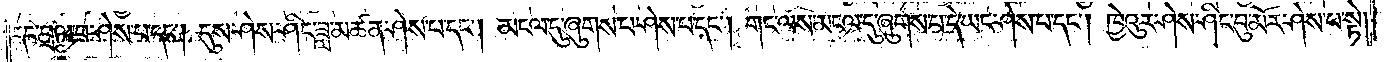དང་བྲལ་བ་ཤེས་པ་དང༌། དུས་ཤེས་ཤིང་ཟླ་མཚན་ཤེས་པ་དང༌། མངལ་དུ་ཞུགས་པ་ཤེས་པ་དང༌། གང་ལས་མངལ་དུ་ཞུགས་པ་དེ་ཡང་ཤེས་པ་དང༌། ཁྱེའུར་ཤེས་ཤིང་བུ་མོར་ཤེས་པ་སྟེ།
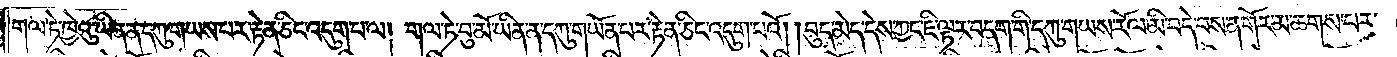གལ་ཏེ་ཁྱེའུ་ཡིན་ན་དཀུ་གཡས་པར་རྟེན་ཅིང་འདུག་པ་ལ། གལ་ཏེ་བུ་མོ་ཡིན་ན་དཀུ་གཡོན་པར་རྟེན་ཅིང་འདུག་པའོ། །བུད་མེད་དེས་ཀྱང་ཇི་ལྟར་བདག་གི་དཀུ་གཡས་རོལ་མི་བདེ་བས་ན་གོར་མ་ཆགས་པར་
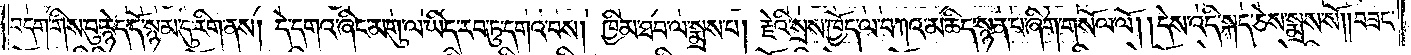བདག་གིས་བུ་རྙེད་དོ་སྙམ་དུ་རིག་ནས། དེ་དགའ་ཞིང་མགུ་ལ་ཡིད་རབ་ཏུ་དགའ་བས། ཁྱིམ་ཐབ་ལ་སྨྲས་པ། རྗེའི་སྲས་ཁྱོད་ལ་བཀའ་མཆིད་སྙན་པ་ཞིག་གསོལ་ལོ། །དེས་འདི་སྐད་ཅེས་སྨྲས་སོ། །བཟང་
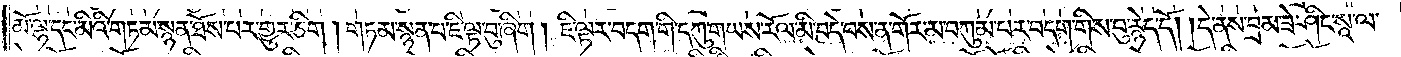མོ་ལྷ་དང་མིའི་གཏམ་སྙན་ཐོས་པར་གྱུར་ཅིག །གཏམ་སྙན་པ་ཇི་ལྟ་བུ་ཞིག །ཇི་ལྟར་བདག་གི་དཀུ་གཡས་རོལ་མི་བདེ་བས་ན་གོར་མ་བཀུམ་པར་བདག་གིས་བུ་རྙེད་དོ། །དེ་ནས་བྲམ་ཟེ་ཤིང་སཱ་ལ་
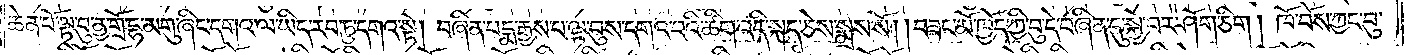ཆེན་པོ་ལྟ་བུ་ནྱ་གྲོ་དྷ་མགུ་ཞིང་དགའ་ལ་ཡིད་རབ་ཏུ་དགའ་སྟེ། བཞིན་པདྨ་རྒྱས་པ་ལྟ་བུས་དགའ་བའི་ཚིག་འདི་སྐད་ཅེས་སྨྲས་སོ། །བཟང་མོ་ཁྱོད་ཀྱི་བུ་དེ་བཞིན་དུ་སྐྱེ་བར་ཤོག་ཅིག། ཁོ་བོས་ཀྱང་བུ་
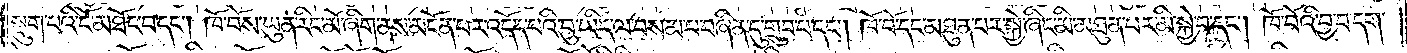སྡུག་པའི་ངོ་མཐོང་བ་དང༌། ཁོ་བོས་ཡུན་རིང་མོ་ཞིག་ནས་མངོན་པར་འདོད་པའི་བུ་ཡིད་ལ་བསམ་པ་བཞིན་དུ་གྲུབ་པ་དང༌། ཁོ་བོ་དང་མཐུན་པར་སྐྱེ་ཞིང་མི་མཐུན་པར་མི་སྐྱེ་བ་དང༌། ཁོ་བོའི་བྱ་བ་དག་
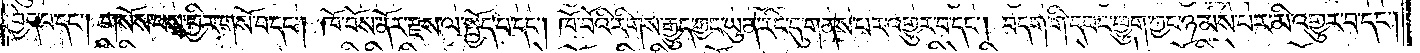བྱེད་པ་དང༌། གསོས་པས་ཕྱིར་གསོ་བ་དང༌། ཁོ་བོས་ནོར་རྫས་ལ་སྤྱོད་པ་དང༌། ཁོ་བོའི་རིགས་རྒྱུད་ཀྱང་ཡུན་རིང་དུ་གནས་པར་འགྱུར་བ་དང༌། བདག་གི་དབང་ཕྱུག་ཀྱང་ཉམས་པར་མི་འགྱུར་བ་དང༌།
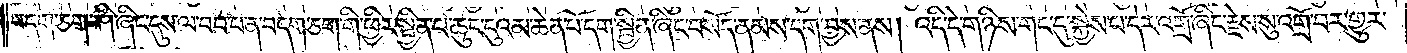བདག་ཅག་ཤི་ཞིང་དུས་ལ་བབ་པ་ན་བདག་ཅག་གི་ཕྱིར་སྦྱིན་པ་ཆུང་ངུའམ་ཆེན་པོ་དག་སྦྱིན་ཞིང་བསོད་ནམས་དག་བྱས་ནས། འདི་དེ་གཉིས་གང་དུ་སྐྱེས་པ་དེར་འགྲོ་ཞིང་རྗེས་སུ་འགྲོ་བར་འགྱུར་
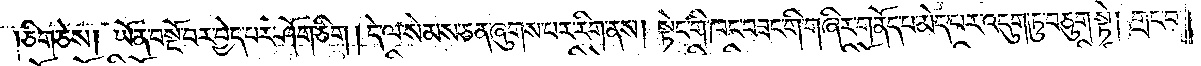ཅིག་ཅེས། ཡོན་བསྔོ་བར་བྱེད་པར་ཤོག་ཅིག །དེ་ལ་སེམས་ཅན་ཞུགས་པར་རིག་ནས། སྟེང་གི་ཁང་བཟང་གི་གཞིར་གནོད་པ་མེད་པར་འདུག་ཏུ་བཅུག་སྟེ། གྲང་བ་
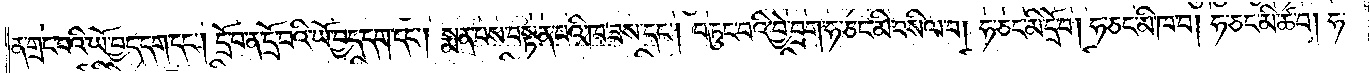ན་གྲང་བའི་ཡོ་བྱད་དག་དང༌། དྲོ་བ་ན་དྲོ་བའི་ཡོ་བྱད་དག་དང༌། སྨན་པས་བསྟན་པའི་ཁ་ཟས་དང༌། བཏུང་བའི་བྱེ་བྲག་ཧ་ཅང་མི་བསིལ་བ། ཧ་ཅང་མི་དྲོ་བ། ཧ་ཅང་མི་ཁ་བ། ཧ་ཅང་མི་ཚ་བ། ཧ་
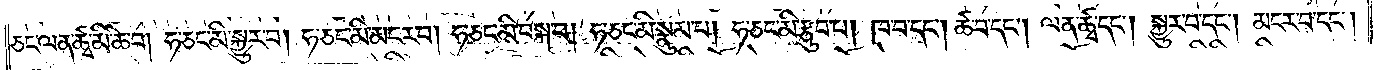ཅང་ལན་ཚྭ་མི་ཆེ་བ། ཧ་ཅང་མི་སྐྱུར་བ། ཧ་ཅང་མི་མངར་བ། ཧ་ཅང་མི་བསྐ་བ། ཧ་ཅང་མི་སྣུམ་པ། ཧ་ཅང་མི་རྩུབ་པ། ཁ་བ་དང༌། ཚ་བ་དང༌། ལན་ཚྭ་དང༌། སྐྱུར་བ་དང༌། མངར་བ་དང༌།
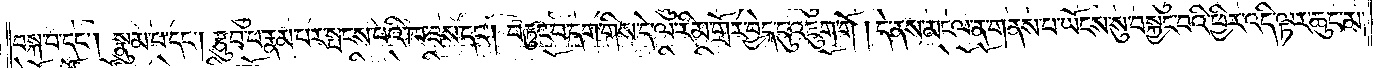བསྐ་བ་དང༌། སྣུམ་པ་དང༌། རྩུབ་པ་རྣམ་པར་སྤངས་པའི་ཁ་ཟས་དང༌། བཏུང་བ་དག་གིས་དེ་ལ་རིམ་གྲོར་བྱེད་དུ་འཇུག་གོ། །དེ་ནས་མངལ་ན་གནས་པ་ཡོངས་སུ་བསྐྱང་བའི་ཕྱིར་འདི་ལྟར་ཆུང་མ་
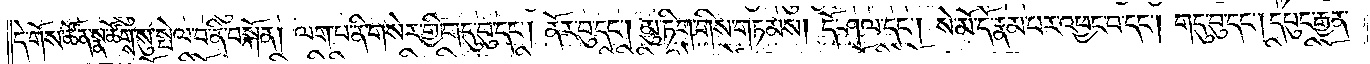དེ་གོས་ཚོན་སྣ་ཚོགས་སུ་སྤེལ་བ་ནི་བསྐོན། ལག་པ་ནི་གསེར་གྱི་གདུ་བུ་དང༌། ནོར་བུ་དང༌། མུ་ཏིག་གིས་གཏམས། དོ་ཤལ་དང༌། སེ་མོ་དོ་རྣམ་པར་འཕྱང་བ་དང༌། གདུ་བུ་དང༌། དཔུང་རྒྱན་
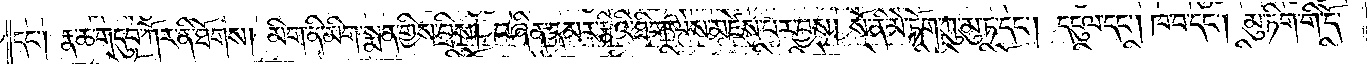དང༌། རྣ་ཆ་གདུབ་ཀོར་ནི་ཐོགས། མིག་ནི་མིག་སྨན་གྱིས་བྲིས། བཞིན་དམར་རྩིའི་ཐིག་ལེས་མཛེས་པར་བྱས། སོ་ནི་མེ་ཏོག་ཀུ་མུ་ཏ་དང༌། དངུལ་དང༌། ཁ་བ་དང༌། མུ་ཏིག་གི་དོ་
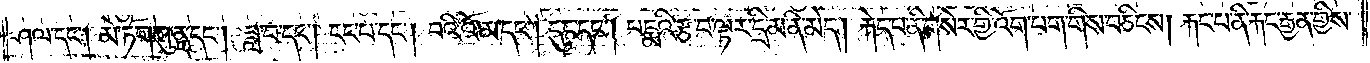ཤལ་དང༌། མེ་ཏོག་ཀུནད་དང༌། ཟླ་བ་དང༌། ངང་པ་དང༌། བའི་འོ་མ་དང༌། དུང་དང༌། པདྨའི་རྩ་བ་ལྟར་དྲི་མ་ནི་མེད། རྐེད་པ་ནི་གསེར་གྱི་འོག་པག་གིས་བཅིངས། རྐང་པ་ནི་རྐང་རྒྱན་གྱིས་
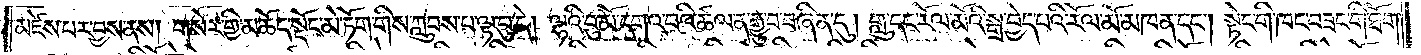མཛེས་པར་བྱས་ནས། གསེར་གྱི་མཆོད་སྡོང་མེ་ཏོག་གིས་ཀླུབས་པ་ལྟ་བུ་དེ། ལྷའི་བུ་མོ་དགའ་བའི་ཚལ་ན་རྒྱུ་བ་བཞིན་དུ། གླུ་དང་རོལ་མོའི་སྒྲ་བྱེད་པའི་རོལ་མོ་མཁན་དང༌། སྟེང་གི་ཁང་བཟང་གི་ཐོག་
